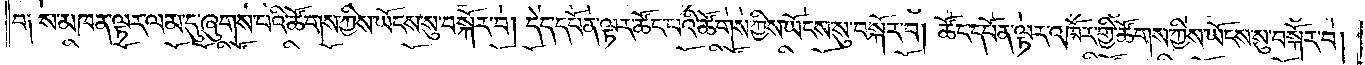བ༑ ས་མཁན་ལྟར་ལམ་དུ་ཞུགས་པའི་ཚོགས་ཀྱིས་ཡོངས་སུ་བསྐོར་བ། དེད་དཔོན་ལྟར་ཚོང་པའི་ཚོགས་ཀྱིས་ཡོངས་སུ་བསྐོར་བ། ཚོང་དཔོན་ལྟར་འཁོར་གྱི་ཚོགས་ཀྱིས་ཡོངས་སུ་བསྐོར་བ།
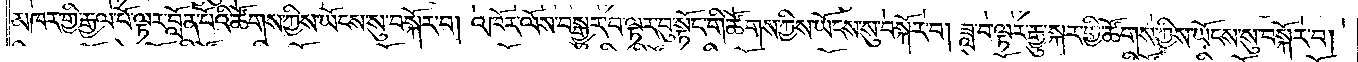མཁར་གྱི་རྒྱལ་པོ་ལྟར་བློན་པོའི་ཚོགས་ཀྱིས་ཡོངས་སུ་བསྐོར་བ། འཁོར་ལོས་བསྒྱུར་བ་ལྟར་བུ་སྟོང་གི་ཚོགས་ཀྱིས་ཡོངས་སུ་བསྐོར་བ། ཟླ་བ་ལྟར་རྒྱུ་སྐར་གྱི་ཚོགས་ཀྱིས་ཡོངས་སུ་བསྐོར་བ།
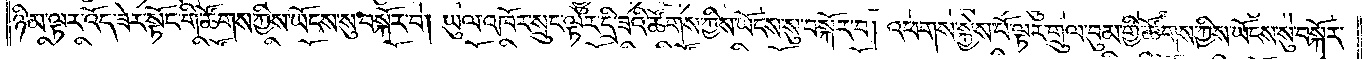ཉི་མ་ལྟར་འོད་ཟེར་སྟོང་གི་ཚོགས་ཀྱིས་ཡོངས་སུ་བསྐོར་བ། ཡུལ་འཁོར་སྲུང་ལྟར་དྲི་ཟའི་སོགས་ཀྱིས་ཡོངས་སུ་བསྐོར་བ། འཕགས་སྐྱེས་པོ་ལྟར་གྲུལ་བུམ་གྱི་ཚོགས་ཀྱིས་ཡོངས་སུ་བསྐོར་
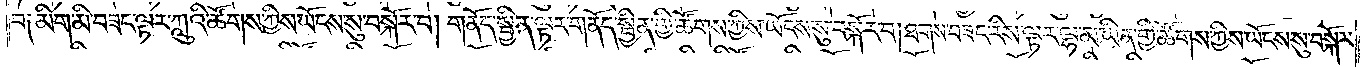བ༑ མིག་མི་བཟང་ལྟར་ཀླུའི་ཚོགས་ཀྱིས་ཡོངས་སུ་བསྐོར་བ། གནོད་སྦྱིན་ལྟར་གནོད་སྦྱིན་གྱི་ཚོགས་ཀྱིས་ཡོངས་སུ་བསྐོར་བ། ཐགས་བཟང་རིས་ལྟར་ལྷ་མ་ཡིན་གྱི་ཚོགས་ཀྱིས་ཡོངས་སུ་བསྐོར་
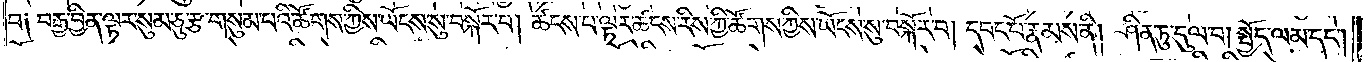བ༑ བརྒྱ་བྱིན་ལྟར་སུམ་ཅུ་རྩ་གསུམ་པའི་ཚོགས་ཀྱིས་ཡོངས་སུ་བསྐོར་བ། ཚངས་པ་ལྟར་ཚངས་རིས་ཀྱི་ཚོགས་ཀྱིས་ཡོངས་སུ་བསྐོར་བ། དབང་པོ་རྣམས་ནི། ཤིན་ཏུ་དུལ་བ། སྤྱོད་ལམ་དང༌།
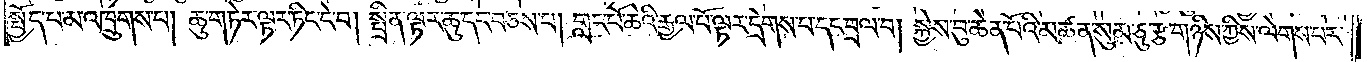སྤྱོད་པ་མ་འཁྲུགས་པ། ཆུ་གཏེར་ལྟར་ཏིང་ངེ་བ། སྤྲིན་ལྟར་ཆུ་དང་བཅས་པ། གླང་པོ་ཆེའི་རྒྱལ་པོ་ལྟར་དྲེགས་པ་དང་བྲལ་བ། སྐྱེས་བུ་ཆེན་པོའི་མཚན་སུམ་ཅུ་རྩ་གཉིས་ཀྱིས་ལེགས་པར་
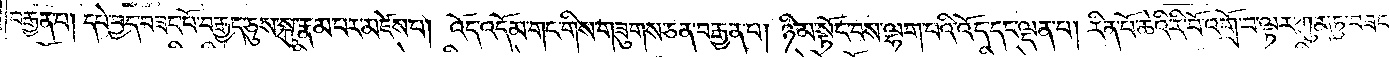བརྒྱན་པ། དཔེ་བྱད་བཟང་པོ་བརྒྱད་ཅུས་སྐུ་རྣམ་པར་མཛེས་པ། འོད་འདོམ་གང་གིས་གཟུགས་ཅན་བརྒྱན་པ། ཉི་མ་སྟོང་བས་ལྷག་པའི་འོད་དང་ལྡན་པ། རིན་པོ་ཆེའི་རི་བོ་འགྲོ་བ་ལྟར་ཀུན་ཏུ་བཟང་
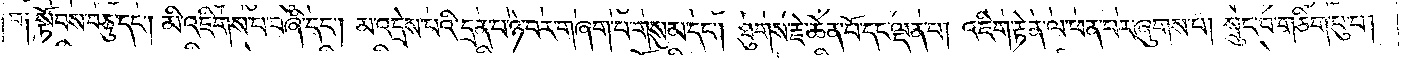བ༑ སྟོབས་བཅུ་དང༌། མི་འཇིགས་པ་བཞི་དང༌། མ་འདྲེས་པའི་དྲན་པ་ཉེ་བར་གཞག་པ་གསུམ་དང༌། ཐུགས་རྗེ་ཆེན་པོ་དང་ལྡན་པ། འཇིག་རྟེན་ལ་ཕན་པར་ཞུགས་པ། སྲུང་བ་གཅིག་པུ་པ།
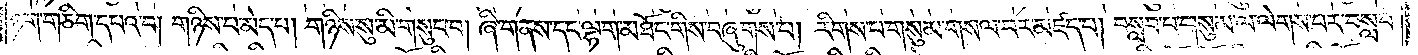ཉག་གཅིག་དཔའ་བ། གཉིས་པ་མེད་པ། གཉིས་སུ་མི་གསུང་བ། ཞི་གནས་དང་ལྷག་མཐོང་གིས་བཞུགས་པ། རིགས་པ་གསུམ་གསལ་བར་མཛད་པ། བསླབ་པ་གསུམ་ལ་ལེགས་པར་བསླབ་
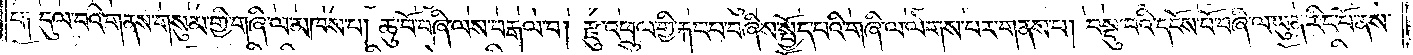པ༑ དུལ་བའི་གནས་གསུམ་གྱི་གཞི་ལ་མཁས་པ། ཆུ་བོ་བཞི་ལས་བརྒལ་བ། རྫུ་འཕྲུལ་གྱི་རྐང་པ་བཞིས་སྤྱོད་པའི་གཞི་ལ་ལེགས་པར་གནས་པ། བསྡུ་བའི་དངོས་པོ་བཞི་ལ་ཡུན་རིང་པོ་ནས་
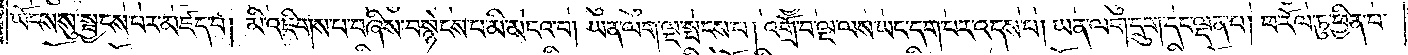ཡོངས་སུ་སྦྱངས་པར་མཛད་པ། མི་འཇིགས་པ་བཞིས་བསྙེངས་པ་མི་མངའ་བ། ཡན་ལག་ལྔ་སྤངས་པ། འགྲོ་བ་ལྔ་ལས་ཡང་དག་པར་འདས་པ། ཡན་ལག་དྲུག་དང་ལྡན་པ། ཕ་རོལ་ཏུ་ཕྱིན་པ་
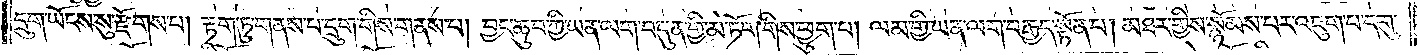དྲུག་ཡོངས་སུ་རྫོགས་པ། རྟག་ཏུ་གནས་པ་དྲུག་གིས་གནས་པ། བྱང་ཆུབ་ཀྱི་ཡན་ལག་བདུན་གྱི་མེ་ཏོག་གིས་ཕྱུག་པ། ལམ་གྱི་ཡན་ལག་བརྒྱད་སྟོན་པ། མཐར་གྱིས་སྙོམས་པར་འཇུག་པ་དགུ་
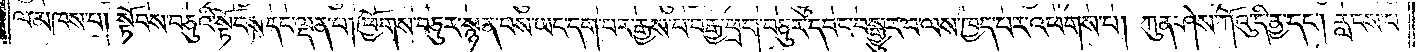ལ་མཁས་པ། སྟོབས་བཅུའི་སྟོབས་དང་ལྡན་པ། ཕྱོགས་བཅུར་སྙན་པས་ཡང་དག་པར་རྒྱས་པ་བརྒྱ་ཕྲག་བཅུར་དབང་བསྒྱུར་བ་ལས་ཁྱད་པར་འཕགས་པ། ཀུན་ཤེས་ཀོའུ་དི་ནྱ་དང༌། རླངས་པ་
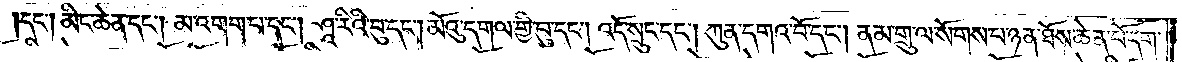དང༌། མིང་ཆེན་དང༌། མ་འགག་པ་དང༌། ཤཱ་རིའི་བུ་དང༌། མོའུ་དགལ་གྱི་བུ་དང༌། འོད་སྲུང་དང༌། ཀུན་དགའ་བོ་དང༌། ནམ་གྲུ་ལ་སོགས་པ་ཉན་ཐོས་ཆེན་པོ་དག་
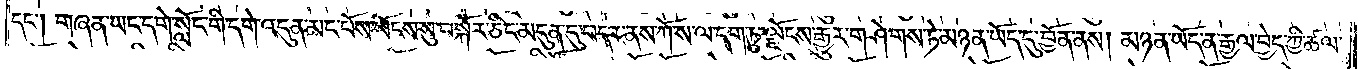དང༌། གཞན་ཡང་དགེ་སློང་གི་དགེ་འདུན་མང་པོས་ཡོངས་སུ་བསྐོར་ཅིང་མདུན་དུ་བདར་ནས་ཀོ་ས་ལ་དག་ཏུ་ལྗོངས་རྒྱུར་གཤེགས་ཏེ་མཉན་ཡོད་དུ་བྱོན་ནས། མཉན་ཡོད་ན་རྒྱལ་བྱེད་ཀྱི་ཚལ་
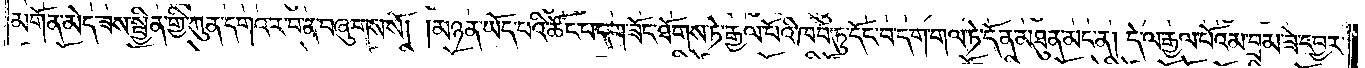མགོན་མེད་ཟས་སྦྱིན་གྱི་ཀུན་དགའ་ར་བ་ན་བཞུགས་སོ། །མཉན་ཡོད་པའི་ཚོང་པ་དག་ཟོང་ཐོགས་ཏེ་རྒྱལ་པོའི་ཁབ་ཏུ་དོང་བ་དག་གལ་ཏེ་དོན་མཐུན་མང་ན། དེ་ལ་རྒྱལ་པོའམ་བྲམ་ཟེ་དབྱར་
